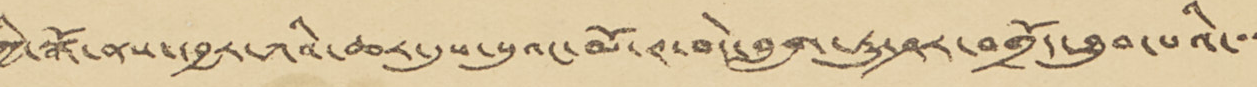ཀྱི་སྒོ་ནས་དབྱར་ཀའི་ཆར་དུས་སུའང་མོ་ཊ་བདེ་བླག་ཏུ་ཤར་བགྲོད་ཐུབ་པའི་་་
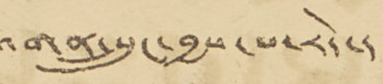འགན་སྲུང་བྱས་པ་རེད་།
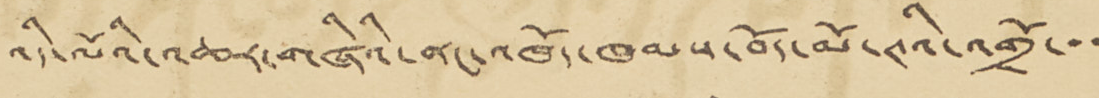འདི་ལོའི་འཆར་གཞིའི་ནང་འཁོད་ཁམས་བོད་མོ་ཊའི་འགྲོ་་་
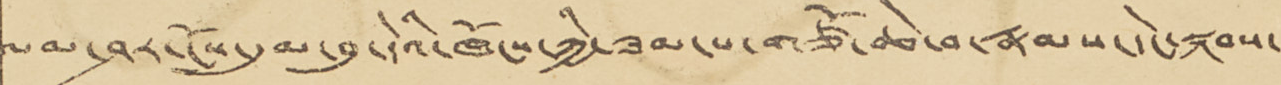ལམ་ཤར་ངོས་དུམ་བུ་དེའི་ཁོངས་ཀྱི་ཟམ་པ་གཙོ་ཆེ་བ་རྣམས་དེང་སྐབས་
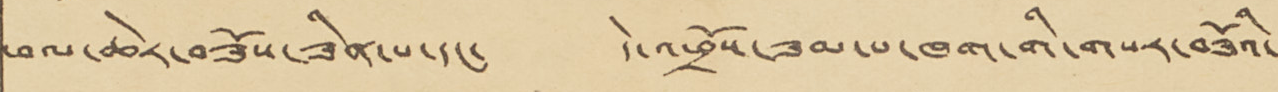ཕལ་ཆེར་བཟོས་ཟིན་པ་དང་ དེ་འཕྲོས་ཟམ་པ་ཁག་གི་གསར་བཟོའི་
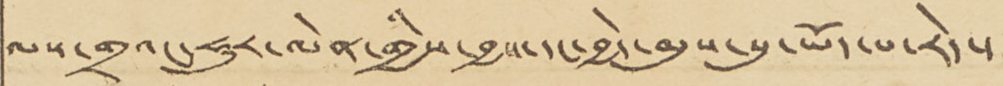ལས་གྲའང་ཧུར་ལེན་གྱིས་བྱས་དང་བྱེད་མུས་སུ་ཡོད་པ་རེད་།
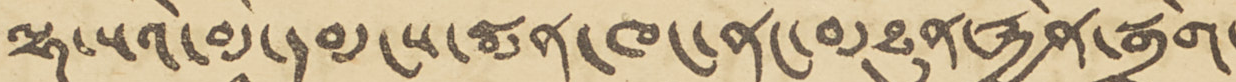ལྷ་སའི་མི་དམངས་སྨན་ཁང་ནང་མཐུན་རྐྱེན་སྒྲིག་
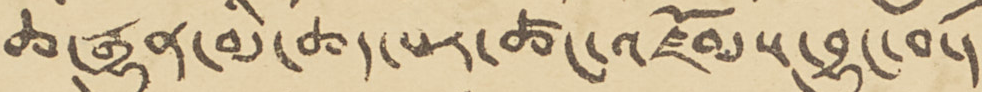ཆ་རྒྱུན་མི་ཆད་པར་ཚང་འཛོམས་བྱུང་བ་།
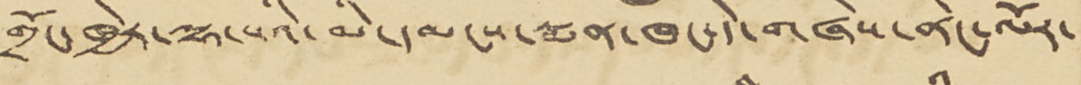གྲོང་ཁྱེར་ལྷ་སའི་མི་དམངས་སྨན་ཁང་དེ་གཞེས་ནིང་ལོར་
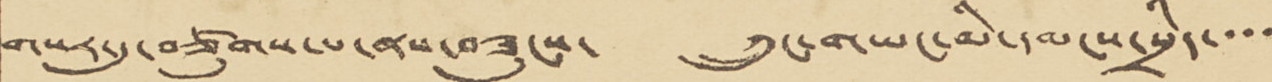གསར་དུ་བཙུགས་པ་ནས་བཟུངས་ ཀྲུང་གཡང་མི་དམངས་སྲིད་་་་
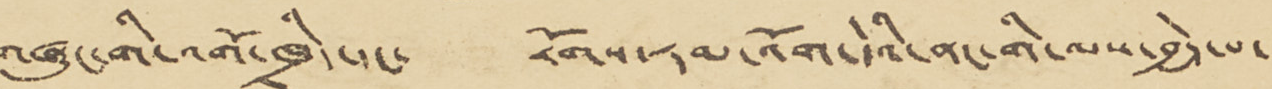གཞུང་གི་འགོ་ཁྲིད་དང་ རོགས་རམ་འོག་དེའི་ནང་གི་ལས་བྱེད་པ་
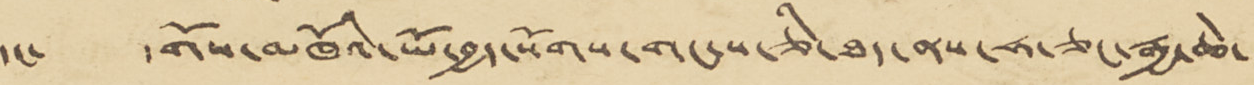དང་ དགོས་མཁོའི་ཡོ་བྱད་སོགས་གང་ས་ཅི་ཐད་ནས་ཧ་ཅང་རྒྱ་ཆེ་
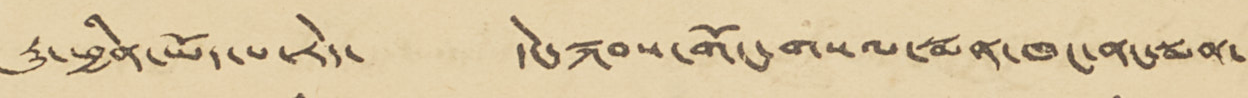རུ་ཕྱིན་ཡོདཔ་པ་རེད་ དེངས་སྐབས་གོང་གསལ་སྨན་ཁང་ནང་སྨན་
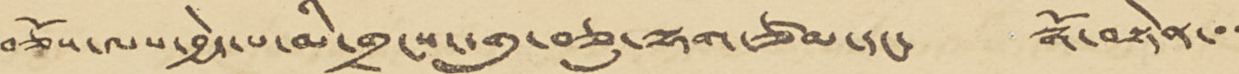བཅོས་ལས་བྱེད་པ་མི་གྲངས་དགུ་བཅུ་ལྷག་ཙམ་དང་ སྒོ་བསྟེན་་་
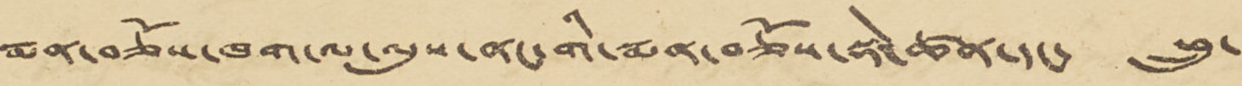སྨན་བཅོས་ཁག་ལ་ལུས་ནང་གི་སྨན་བཅོས་སྡེ་ཚན་དང་ ཕྲུ་
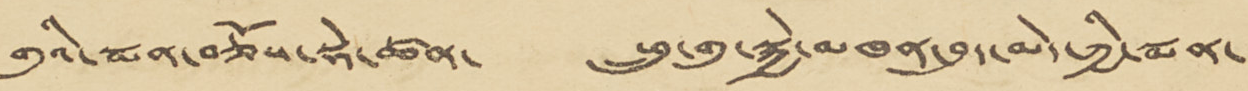གུའི་སྨན་བཅོས་སྡེ་ཚན་ ཕྲུ་གུ་སྐྱེ་མཁན་བུད་མེད་ཀྱི་སྨན་
